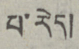པ་རེད།
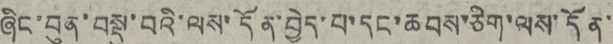ཞིང་བུན་བསྡུ་བའི་ལས་དོན་བྱེད་པ་དང་ཆབས་ཅིག་ལས་དོན་
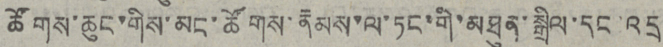ཚོགས་ཆུང་གིས་མང་ཚོགས་རྣམས་ལ་ཏང་གི་མཐུན་སྒྲིལ་དང་འདྲ་
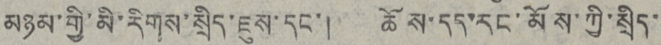མཉམ་གྱི་མི་རིགས་སྲིད་ཇུས་དང་། ཆོས་དད་རང་མོས་ཀྱི་སྲིད་
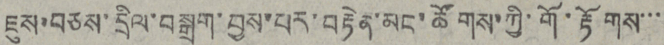ཇུས་བཅས་དྲིལ་བསྒྲག་བྱས་པར་བརྟེན་མང་ཚོགས་ཀྱི་གོ་རྟོགས་་་
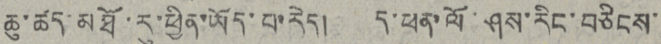ཆུ་ཚད་མཐོ་རུ་ཕྱིན་ཡོད་པ་རེད། ད་ཕན་ལོ་ཤས་རིང་བཅིངས་
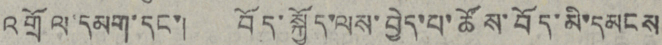འགྲོལ་དམག་དང་། བོད་སྐྱོད་ལས་བྱེད་པ་ཚོས་བོད་མི་དམངས
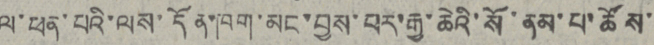ལ་ཕན་པའི་ལས་དོན་ཁག་མང་བྱས་པར་རྒྱ་ཆེའི་སོ་ནམ་པ་ཚོས་
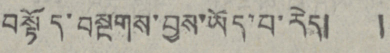བསྟོད་བསྔགས་བྱས་ཡོད་པ་རེད། །
